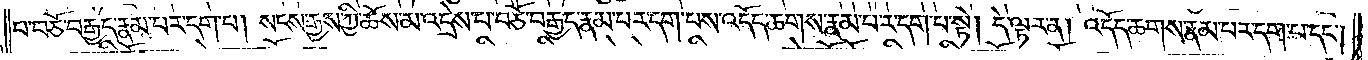པ་བཅོ་བརྒྱད་རྣམ་པར་དག་པ། སངས་རྒྱས་ཀྱི་ཆོས་མ་འདྲེས་པ་བཅོ་བརྒྱད་རྣམ་པར་དག་པས་འདོད་ཆགས་རྣམ་པར་དག་པ་སྟེ། དེ་ལྟར་ན། འདོད་ཆགས་རྣམ་པར་དག་པ་དང༌།
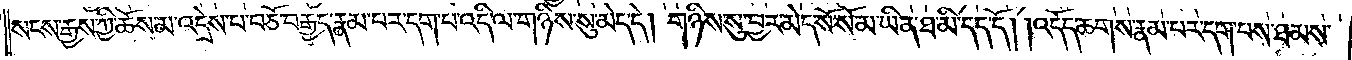སངས་རྒྱས་ཀྱི་ཆོས་མ་འདྲེས་པ་བཅོ་བརྒྱད་རྣམ་པར་དག་པ་འདི་ལ་གཉིས་སུ་མེད་དེ། གཉིས་སུ་བྱར་མེད་སོ་སོ་མ་ཡིན་ཐ་མི་དད་དོ། །འདོད་ཆགས་རྣམ་པར་དག་པས་ཐམས་
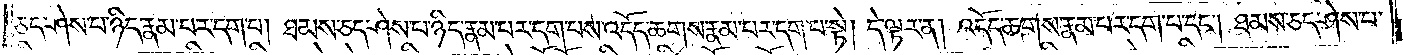ཅད་ཤེས་པ་ཉིད་རྣམ་པར་དག་པ། ཐམས་ཅད་ཤེས་པ་ཉིད་རྣམ་པར་དག་པས་འདོད་ཆགས་རྣམ་པར་དག་པ་སྟེ། དེ་ལྟར་ན། འདོད་ཆགས་རྣམ་པར་དག་པ་དང༌། ཐམས་ཅད་ཤེས་པ་
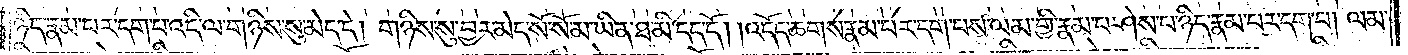ཉིད་རྣམ་པར་དག་པ་འདི་ལ་གཉིས་སུ་མེད་དེ། གཉིས་སུ་བྱར་མེད་སོ་སོ་མ་ཡིན་ཐ་མི་དད་དོ། །འདོད་ཆགས་རྣམ་པར་དག་པས་ལམ་གྱི་རྣམ་པ་ཤེས་པ་ཉིད་རྣམ་པར་དག་པ། ལམ་
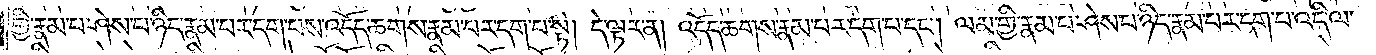གྱི་རྣམ་པ་ཤེས་པ་ཉིད་རྣམ་པར་དག་པས་འདོད་ཆགས་རྣམ་པར་དག་པ་སྟེ། དེ་ལྟར་ན། འདོད་ཆགས་རྣམ་པར་དག་པ་དང༌། ལམ་གྱི་རྣམ་པ་ཤེས་པ་ཉིད་རྣམ་པར་དག་པ་འདི་ལ་
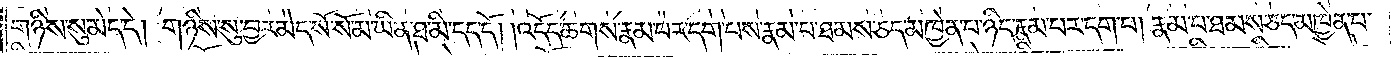གཉིས་སུ་མེད་དེ། གཉིས་སུ་བྱར་མེད་སོ་སོ་མ་ཡིན་ཐ་མི་དད་དོ། །འདོད་ཆགས་རྣམ་པར་དག་པས་རྣམ་པ་ཐམས་ཅད་མཁྱེན་པ་ཉིད་རྣམ་པར་དག་པ། རྣམ་པ་ཐམས་ཅད་མཁྱེན་པ་
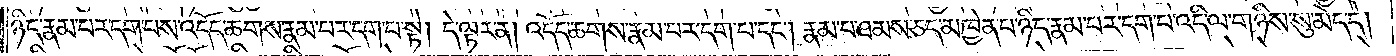ཉིད་རྣམ་པར་དག་པས་འདོད་ཆགས་རྣམ་པར་དག་པ་སྟེ། དེ་ལྟར་ན། འདོད་ཆགས་རྣམ་པར་དག་པ་དང༌། རྣམ་པ་ཐམས་ཅད་མཁྱེན་པ་ཉིད་རྣམ་པར་དག་པ་འདི་ལ་གཉིས་སུ་མེད་དེ།
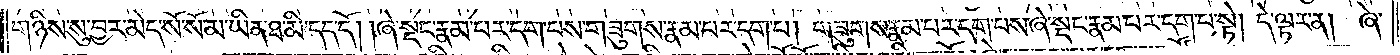གཉིས་སུ་བྱར་མེད་སོ་སོ་མ་ཡིན་ཐ་མི་དད་དོ། །ཞེ་སྡང་རྣམ་པར་དག་པས་གཟུགས་རྣམ་པར་དག་པ། གཟུགས་རྣམ་པར་དག་པས་ཞེ་སྡང་རྣམ་པར་དག་པ་སྟེ། དེ་ལྟར་ན། ཞེ་
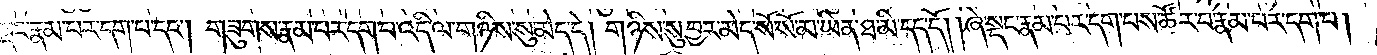སྡང་རྣམ་པར་དག་པ་དང༌། གཟུགས་རྣམ་པར་དག་པ་འདི་ལ་གཉིས་སུ་མེད་དེ། གཉིས་སུ་བྱར་མེད་སོ་སོ་མ་ཡིན་ཐ་མི་དད་དོ། །ཞེ་སྡང་རྣམ་པར་དག་པས་ཚོར་བ་རྣམ་པར་དག་པ།
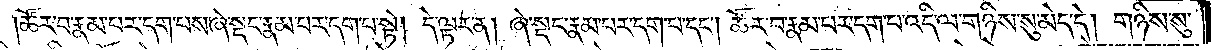ཚོར་བ་རྣམ་པར་དག་པས་ཞེ་སྡང་རྣམ་པར་དག་པ་སྟེ། དེ་ལྟར་ན། ཞེ་སྡང་རྣམ་པར་དག་པ་དང༌། ཚོར་བ་རྣམ་པར་དག་པ་འདི་ལ་གཉིས་སུ་མེད་དེ། གཉིས་སུ་
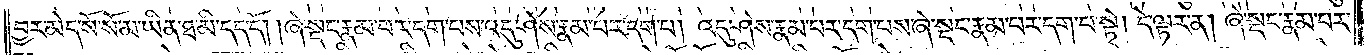བྱར་མེད་སོ་སོ་མ་ཡིན་ཐ་མི་དད་དོ། །ཞེ་སྡང་རྣམ་པར་དག་པས་འདུ་ཤེས་རྣམ་པར་དག་པ། འདུ་ཤེས་རྣམ་པར་དག་པས་ཞེ་སྡང་རྣམ་པར་དག་པ་སྟེ། དེ་ལྟར་ན། ཞེ་སྡང་རྣམ་པར་
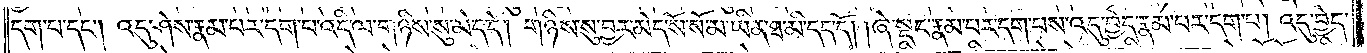དག་པ་དང༌། འདུ་ཤེས་རྣམ་པར་དག་པ་འདི་ལ་གཉིས་སུ་མེད་དེ། གཉིས་སུ་བྱར་མེད་སོ་སོ་མ་ཡིན་ཐ་མི་དད་དོ། །ཞེ་སྡང་རྣམ་པར་དག་པས་འདུ་བྱེད་རྣམ་པར་དག་པ། འདུ་བྱེད་
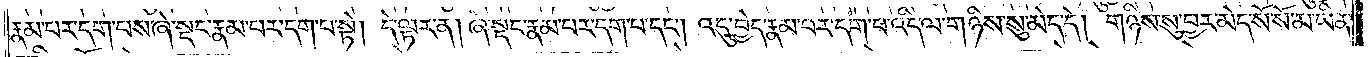རྣམ་པར་དག་པས་ཞེ་སྡང་རྣམ་པར་དག་པ་སྟེ། །དེ་ལྟར་ན། ཞེ་སྡང་རྣམ་པར་དག་པ་དང༌། འདུ་བྱེད་རྣམ་པར་དག་པ་འདི་ལ་གཉིས་སུ་མེད་དེ། གཉིས་སུ་བྱར་མེད་སོ་སོ་མ་ཡིན་
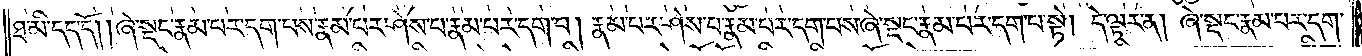ཐ་མི་དད་དོ། །ཞེ་སྡང་རྣམ་པར་དག་པས་རྣམ་པར་ཤེས་པ་རྣམ་པར་དག་པ། རྣམ་པར་ཤེས་པ་རྣམ་པར་དག་པས་ཞེ་སྡང་རྣམ་པར་དག་པ་སྟེ། དེ་ལྟར་ན། ཞེ་སྡང་རྣམ་པར་དག་
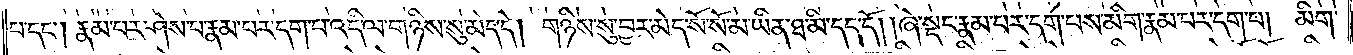པ་དང༌། རྣམ་པར་ཤེས་པ་རྣམ་པར་དག་པ་འདི་ལ་གཉིས་སུ་མེད་དེ། གཉིས་སུ་བྱར་མེད་སོ་སོ་མ་ཡིན་ཐ་མི་དད་དོ། །ཞེ་སྡང་རྣམ་པར་དག་པས་མིག་རྣམ་པར་དག་པ། མིག་
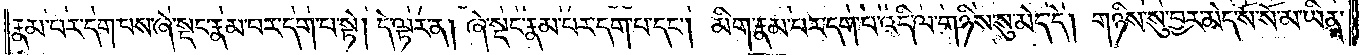རྣམ་པར་དག་པས་ཞེ་སྡང་རྣམ་པར་དག་པ་སྟེ། དེ་ལྟར་ན། ཞེ་སྡང་རྣམ་པར་དག་པ་དང༌། མིག་རྣམ་པར་དག་པ་འདི་ལ་གཉིས་སུ་མེད་དེ། གཉིས་སུ་བྱར་མེད་སོ་སོ་མ་ཡིན་
